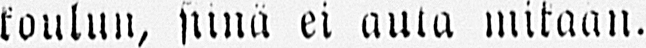koulun, siinä ei aula mikään.
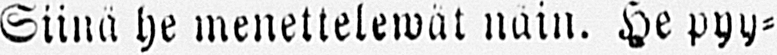Siina he menettelewät näin. He pyy-
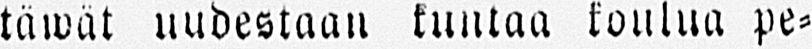täwät uudestaan kuntaa koulua pe-
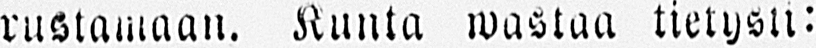rustamaan. Kunta wastaa tietysti:
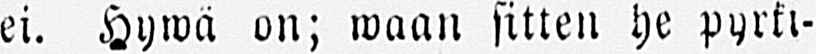ei. Hywä on; waan sitten he pyrki-
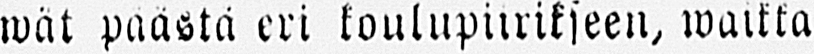wät päästä eri koulupiirikseen, waikka
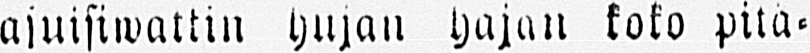ajuisiwattin hujan hajan koko pitä-
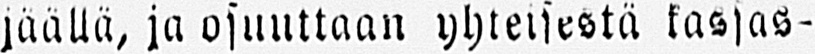jäällä, ja osuuttaan yhteisestä kassas-
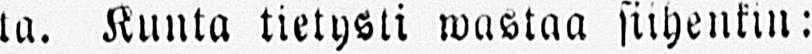ta. Kunta tietysti wastaa siihenkin:
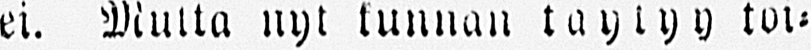ei. Mutta nyt kunnan täytyy toi-
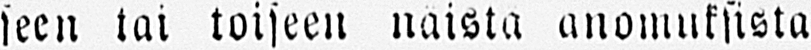seen tai toiseen näistä anomuksista
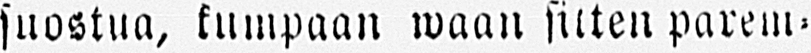suostua, kumpaan waan sitten parem-
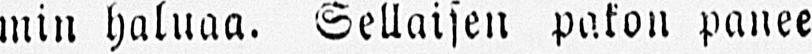min haluaa. Sellaisen pakon panee
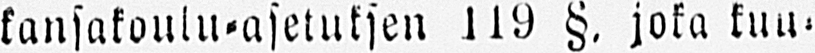kansakoulu-asetuksen 119 §. joka kuu-
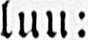luu:
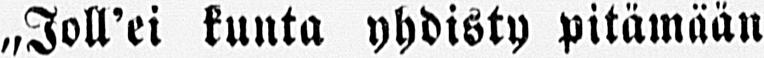„Joll’ei kunta yhdisty pitämään
